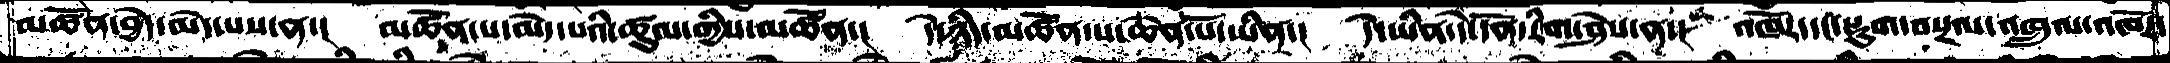མཚོན་བྱེད་མེད་པས་ན་།  མཚོན་པ་མེད་པའི་ཚུལ་གྱིས་མཚོན་།  དེ་ཉིད་མཚོན་པ་ཆེན་པོ་ཡིན་།  དེ་ཡིན་དེ་དོན་རིག་ཤེས་ན་།  འཁོར་དང་སྡུག་བསྔལ་འཁྲུལ་འཁོར་
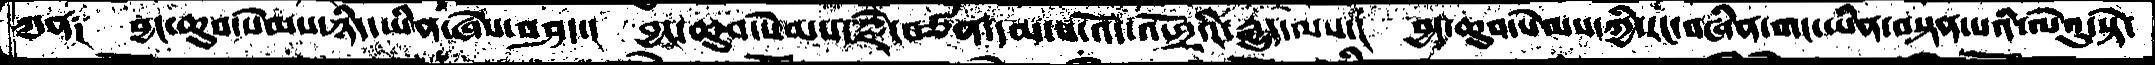ཀུན༑  བྱང་ཆུབ་སེམས་ཉིད་ཡིན་ཞེས་བཤད་།  བྱང་ཆུབ་སེམས་རྗེ་བཙན་དམ་པ་འོད་འཕྲོའི་རྒྱུད་ལས་།  བྱང་ཆུབ་སེམས་ཀྱི་རང་བཞིན་གང་ཡིན་བསྟན་པའི་ལེའུ་སྟེ་
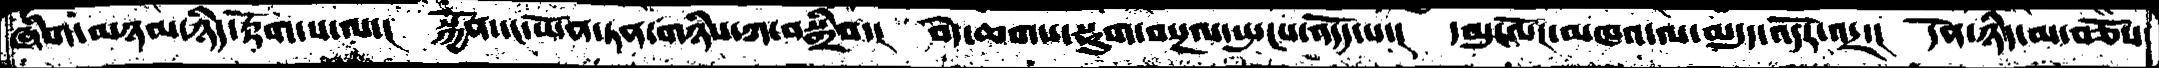ཞིག་མཉམ་ཉིད་རྟོག་པ་ལ་།  སྐྱོན་དང་ཡོན་ཏན་གཉིས་ཀ་བསྒྲིབ་།  བདེ་ཆགས་སྡུག་བསྔལ་སྤངས་འདོད་པ་།  དམུ་ལོང་མཁའ་ལ་མདུད་འདོར་འདྲ་།  དོན་ཉིད་མ་བཅོས་
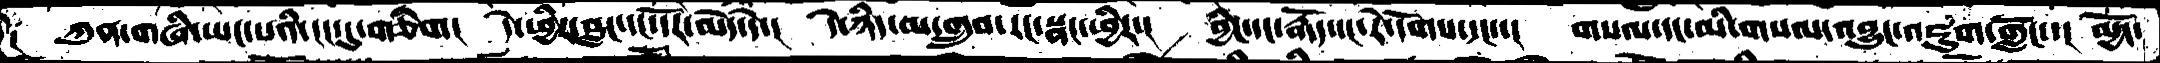༑  ཀུན་གཞི་ཡང་པའི་ངང་དུ་གཅིག།  དེ་ཕྱིར་བླང་དང་དོར་མེད་དེ་།  དེ་ཉིད་མ་གྲུབ་རང་སྣང་ཕྱིར་།  བྱིང་དང་རྒོད་དང་རེ་དོགས་དང་་།  གསལ་དང་མི་གསལ་འབྱུང་འཇུག་གློང་་།  མྱོང་
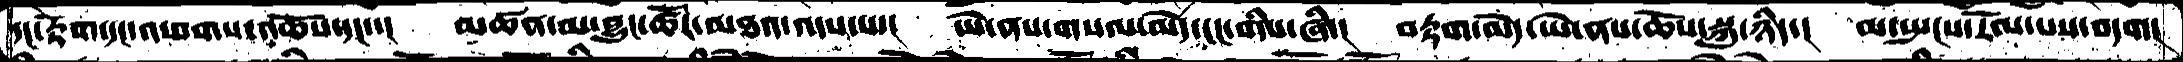དང་རྟོག་དང་འཕགས་འཆོས་དང་་།  མཚན་མ་བྱུང་ཚོར་མཐའ་འདས་པ་།  ཡེ་ནས་གསལ་མེད་ངང་གིས་ཞི་།  བརྟག་མེད་ཡེ་ནས་ཆོས་སྐུ་ཉིད་།  མ་སྤངས་རོལ་པས་བདག་
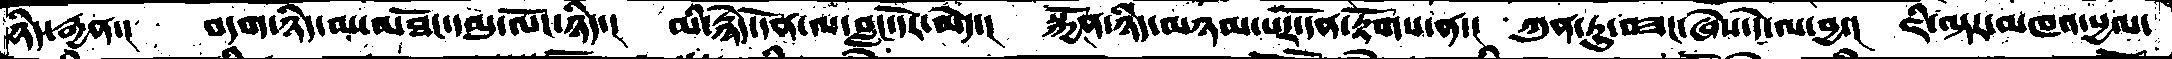ཉིད་རྒྱན་།  བདག་ཉིད་མ་མཐོང་དམུ་ལོང་ཉིད་།  མི་རྙེད་དོན་ལ་བླང་དོར་མེད་།  སྐྱོན་ཉིད་མཉམ་པར་དོན་རྟོགས་ན་།  ཀུན་ཏུ་བཟང་ཞེས་དེ་ལ་བྱ་།  ཇི་ལྟར་མཁའ་སྱལ་
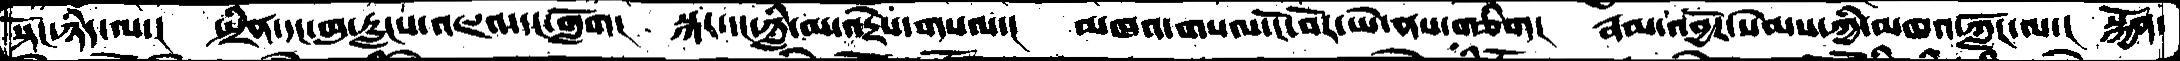སྟོང་ཉིད་ལ་།  སྤྲིན་དང་ཁུ་རླངས་འཇའ་དང་གློག།  སྐར་དང་ཉླི་མ་འདྲེས་གསལ་།  མཁའ་གསལ་ངོ་བོར་ཡེ་ནས་གཅིག།  རྣམ་འབྱོར་སེམས་ཀྱི་མཁའ་ཀློང་ལ་།  སྐྱོན་
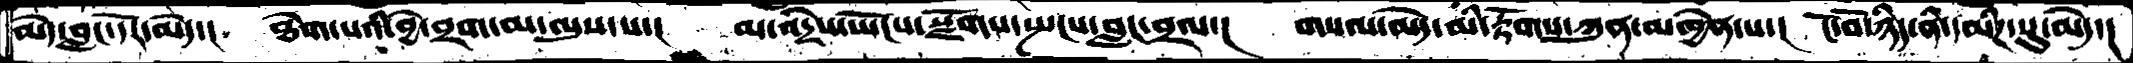མེད་བླང་དོར་མེད་།  ཐེག་པའི་བྱེ་བྲག་མ་ལུས་པ་།  མ་འདྲེས་ཡོངས་སྫོགས་སྤངས་བླང་བྲལ་།  གསལ་མེད་མི་རྟོགས་ཀུན་མཁྱེན་པ་།  ངོ་བོ་ཉིད་ནི་དམིཌ་སུ་མེད་།
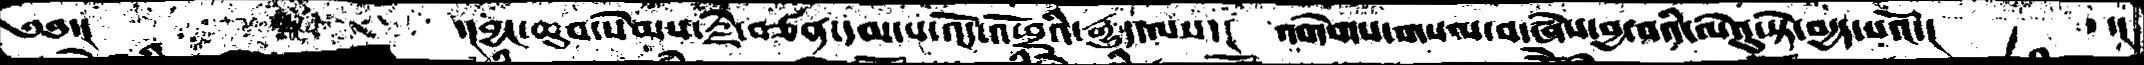༄༅་།    ་།བྱང་ཆུབ་སེམས་རྗེ་བཙན་དམ་པ་འོད་འཕྲོའི་རྒྱུད་ལས་།  འགེགས་གསལ་བ་ཞེས་བྱ་བའི་ལེའུ་སྟེ་བདྱད་པའོ་།     ་།
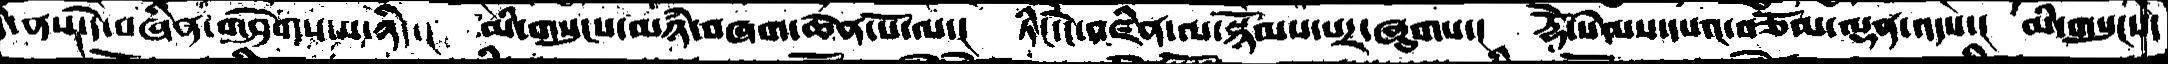དེ་ནས་དེ་བཞིན་གཤེགས་པ་ཉིད་།  མི་གསུངས་མཉཾ་བཞག་ཆེན་པོ་ལ་།   ཏིང་ངེ་འཛིན་ལ་སྙོམས་པར་ཞུགས་།  རྡོེ་སེམས་དཔའ་བཅོམ་ལྡན་འདས་།  མི་གསུངས་
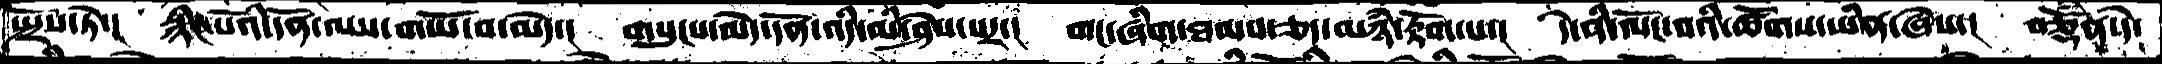སྤྲོས་ཏེ་།  སྙིང་པོའི་དོན་ལས་གཡོ་བ་མེད་།  གསུངས་མེད་དོན་འདི་མི་ཤེས་པར་།  གང་ཞིག་ཐམས་ཅད་མཉཾ་རྟོག་པ་།  དེ་ནི་ལོང་བའི་ཚོགས་ཡིན་ཞེས་།  བཅྡོཾན་དེ་
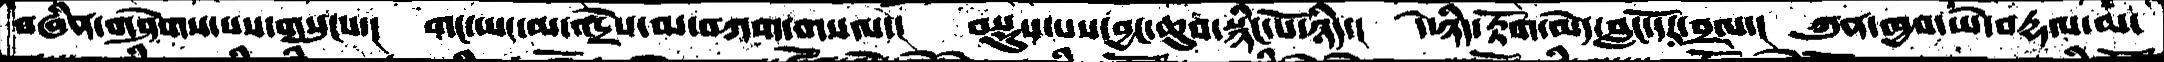བཞིན་གཤེགས་པས་གསུངས་།  གང་ཡང་མ་འདྲེས་མ་བཀག་གསལ་།  བསྡུས་པས་བྱང་ཆུབ་སྙིང་པོ་ཉིད་།  དེ་ཉིད་རྟོག་མེད་བླང་དོར་བྲལ་།  ཀུན་ཁྱབ་ཡེ་བརྡལ་མ་
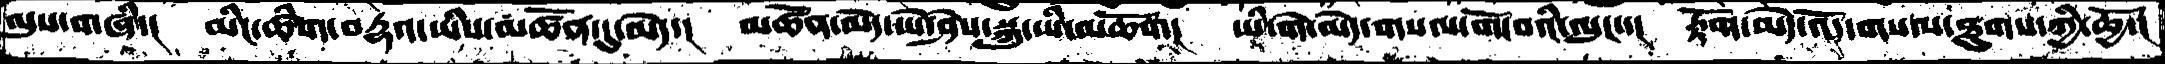ལུས་གཞི་།  མིང་ཚིག་བརྡའ་ཡིས་མཚོན་དུ་མེད་།  མཚོན་མེད་ཡེ་ཤེས་སྐུ་ཡི་མཆོག།  ཡི་གེ་མེད་གསལ་གོ་བའི་ལུང་་།  རྟོག་མེད་འོད་གསལ་ཐུགས་ཀྱི་ཆྱོ་།
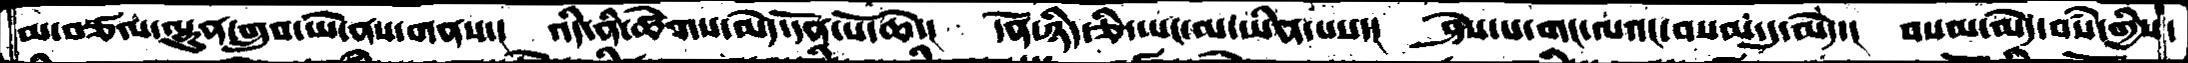མ་བཙལ་ལྷུན་གྲུབ་ཡེ་ནས་གནས་།  འདི་ནི་ཚེགས་མེད་དོན་པོ་ཆེ་།  དོན་ཉིད་ཅི་ཡང་མ་ཡིན་པས་།  ཤེས་པ་གང་ལའང་བསམ་དུ་མེད་།  བསམ་མེདབསཾ་གྱིས་
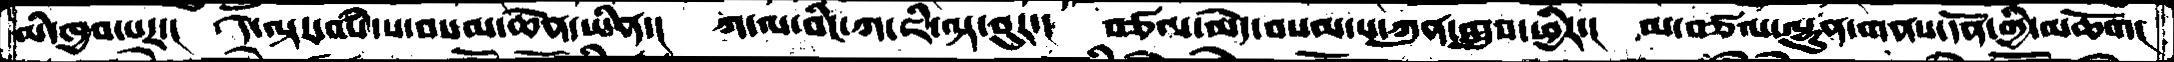མི་ཁྱབ་པར་།  དེ་ལྟར་བསཾ་པ་བསམ་ཆེན་ཡིན་།  ཀ་ལ་བིང་ཀ་ཇི་ལྟ་བུར་།  བཙལ་མེད་བསམ་པ་ཀུན་གྲུབ་ཕྱིར་།  མ་བཙལ་ལྷུན་གནས་དོན་གྱི་མཆོག།
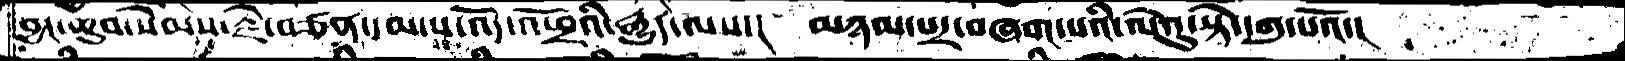བྱང་ཆུབ་སེམས་རྗེ་བཙན་དམ་པ་འོད་འཕྲོའི་རྒྱུད་ལས་།  མཉམ་པར་བཞག་པའི་ལེའུ་སྟེ་དགུ་པའོ་།
